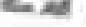22
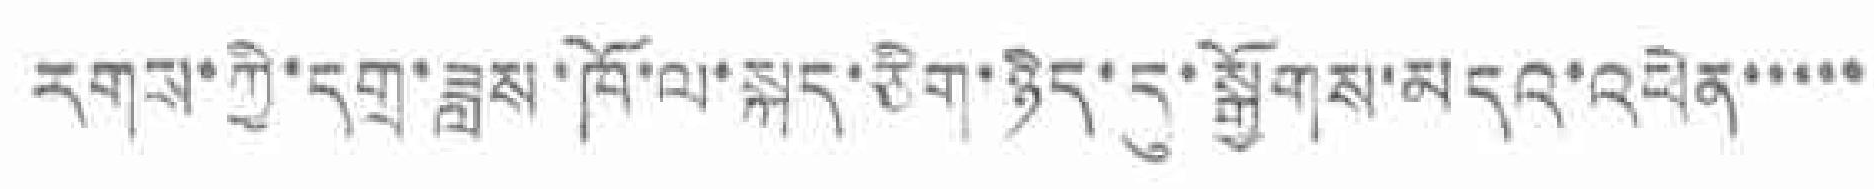རགས་ཀྱི་དགུ་ཟླས་ཁོ་ལ་སྐད་ཅིག་ཉིད་དུ་སྒྱོགས་མདའ་འཕེན་་་་་
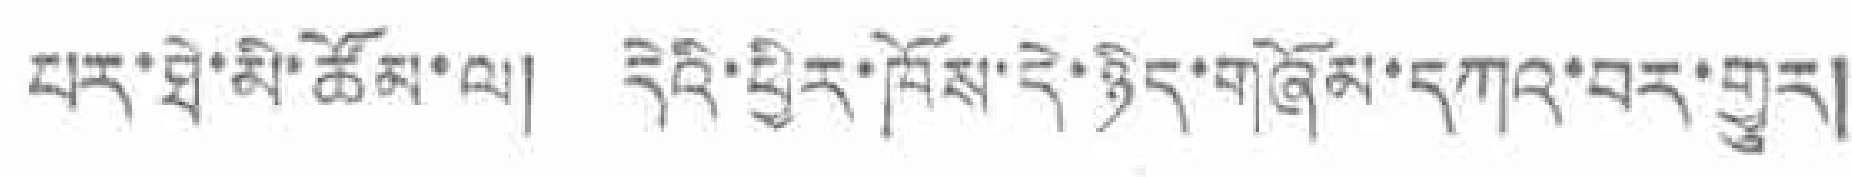པར་ཐེ་མི་ཚོམ་ལ། དེའི་ཕྱིར་ཁོས་དེ་ཉིད་གཞོམ་དཀའ་བར་གྱུར།
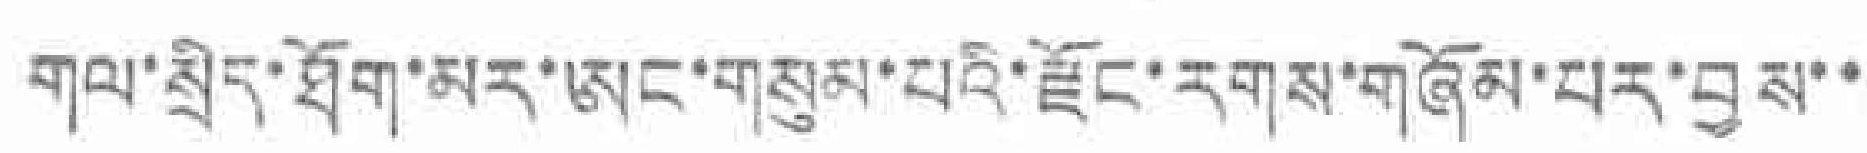གལ་སྲིད་ཐོག་མར་ཨང་གསུམ་པའི་རྫོང་རགས་གཞོམ་པར་བྱས་་
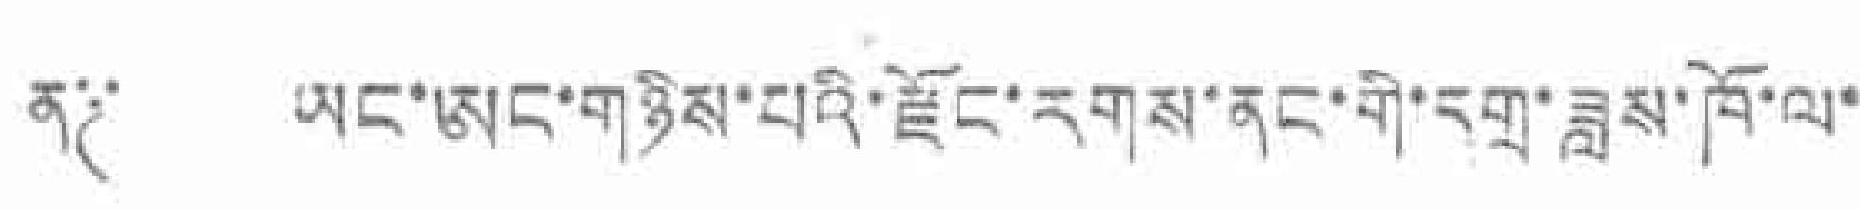ན༐ ཡང་ཨང་གཉིས་པའི་རྫོང་རགས་ནང་གི་དགྲ་ཟླས་ཁོ་ལ་
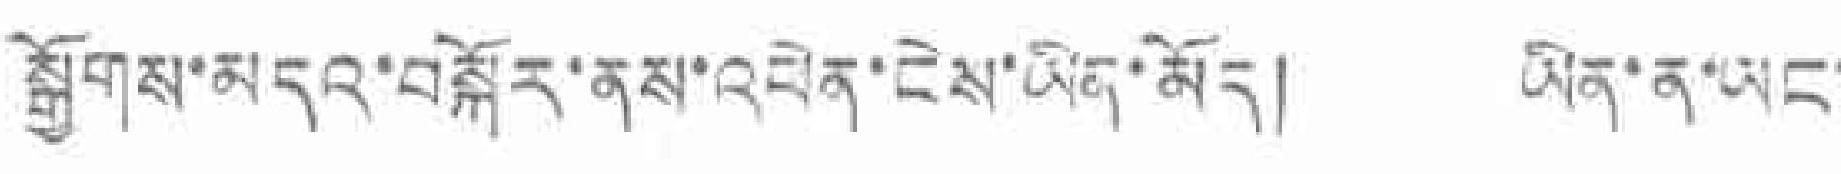སྒྱོགས་མདའ་བསྐོར་ནས་འཕེན་ངེས་ཡིན་མོད། ཡིན་ན་ཡང་
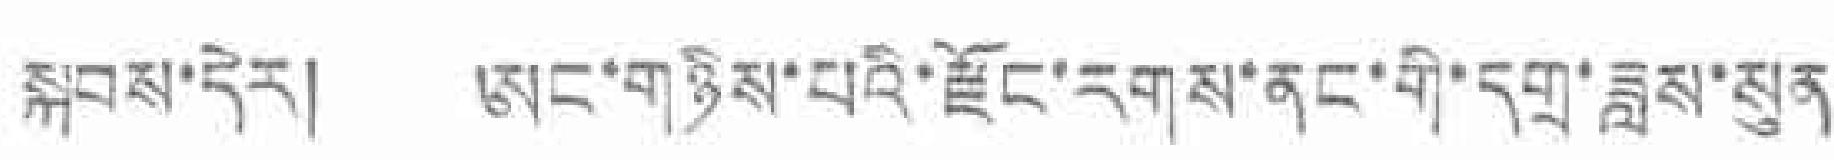སྐབས་དེར། ཨང་གཉིས་པའི་རྫོང་རགས་ནང་གི་དགྲ་ཟླས་སུན་
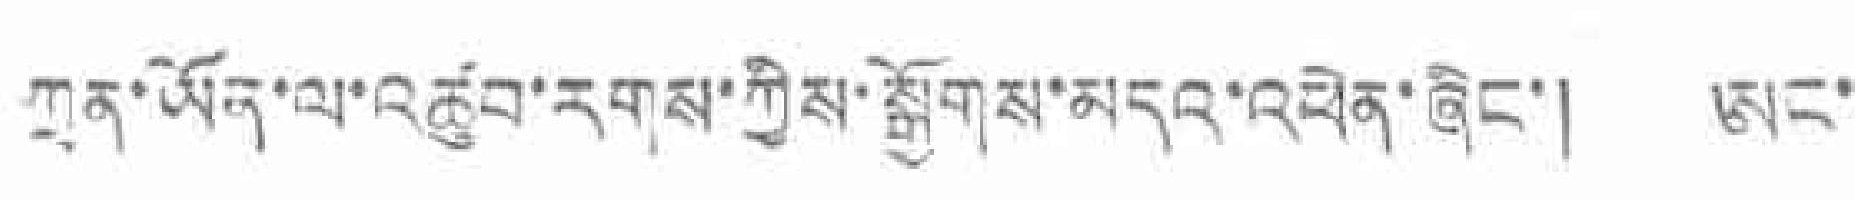ཀྲན་ཡོན་ལ་འཚུབ་རགས་ཀྱིས་སྒྱོགས་མདའ་འཕེན་ཞིང་། ཨང་
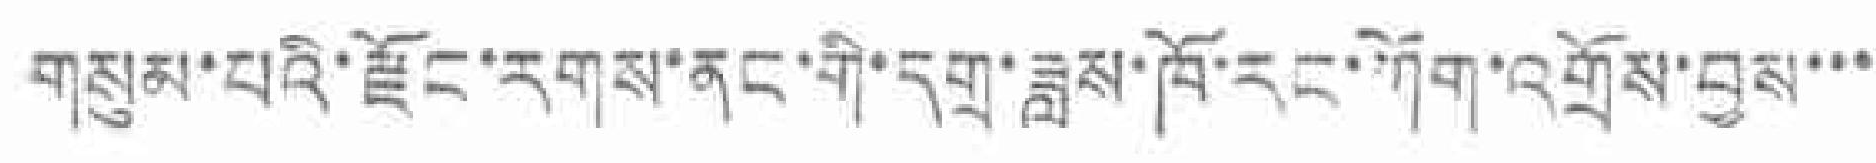གསུམ་པའི་རྫོང་རགས་ནང་གི་དགྲ་ཟླས་ཁོ་རང་ཀོག་འགྲོས་བྱས་་་
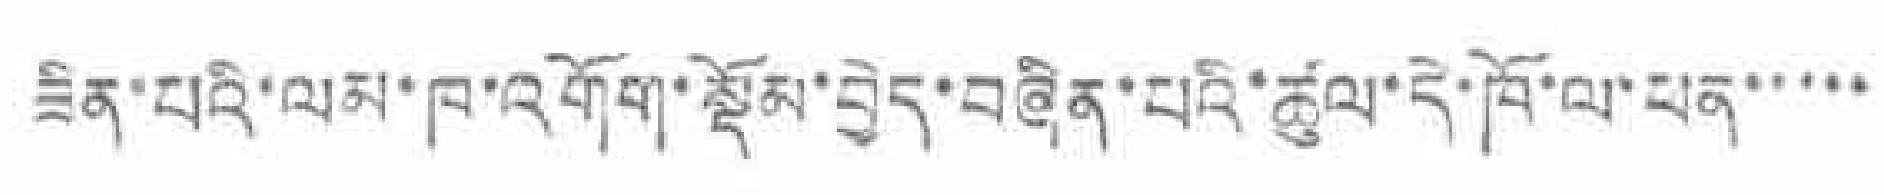ཟིན་པའི་ལམ་ཁ་འགོག་སྡོམ་བྱེད་བཞིན་པའི་ཚུལ་དེ་ཁོ་ལ་ཕན་་་་་
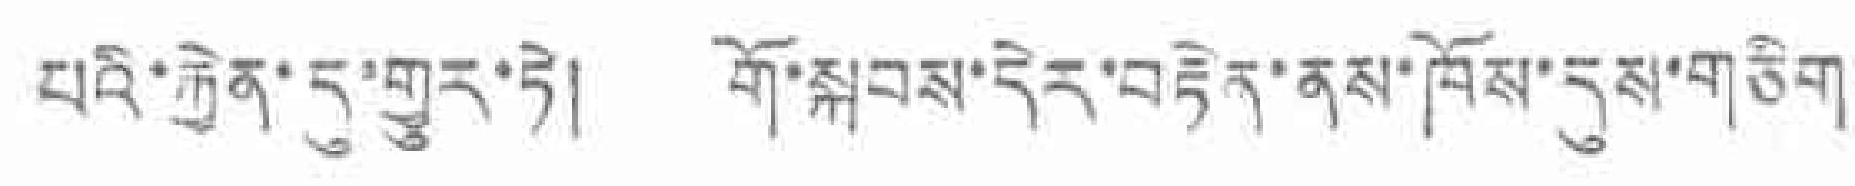པའི་རྐྱེན་དུ་གྱུར་ཏེ། གོ་སྐབས་དེར་བརྟེད་ནས་ཁོས་དུས་གཅིག་
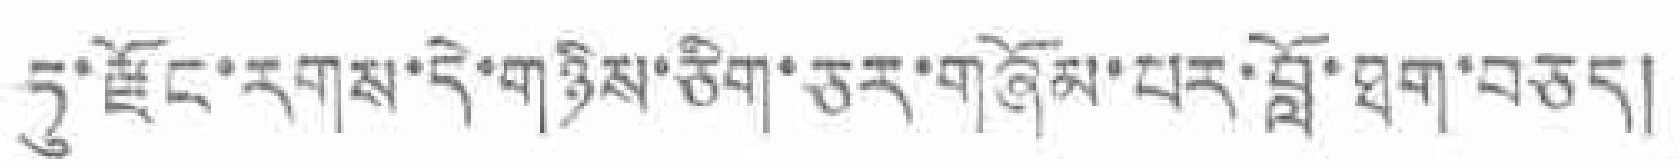ཏུ་རྫོང་དགས་དེ་གཉིས་ཅིག་ཅར་གཞོམ་པར་བློ་ཐག་བཅད།
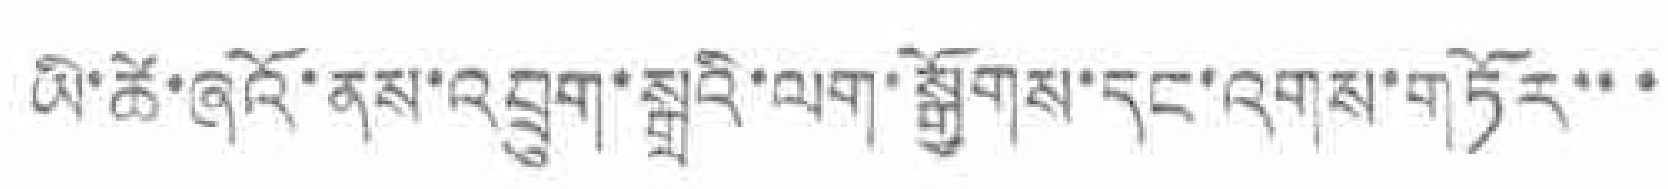ཡི་ཚེ་ཞའོ་ནས་འབྲུག་སྒྲའི་ལག་སྒྱོགས་དང་འགས་གཏོར་་་
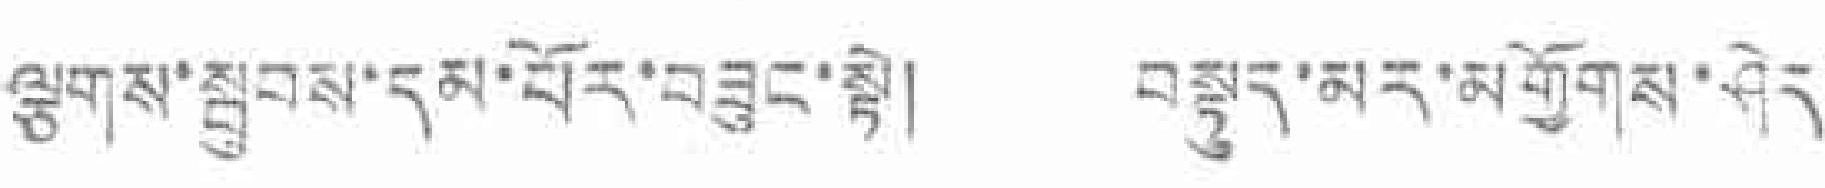ལྕགས་སྦུབས་དམ་པོར་བཟུང་སྟེ། བསྟུད་མར་མགྱོགས་ཤེད་
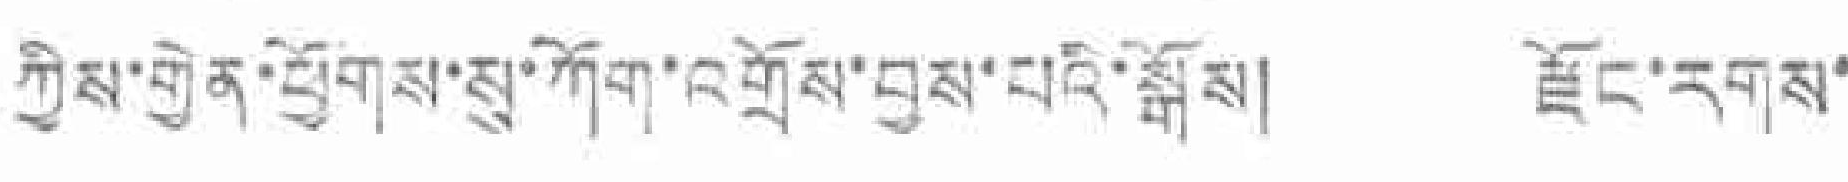ཀྱིས་གྱེན་ཕྱོགས་སུ་ཀོག་འགྲོས་བྱས་པའི་སྐོས། རྫོང་རགས་
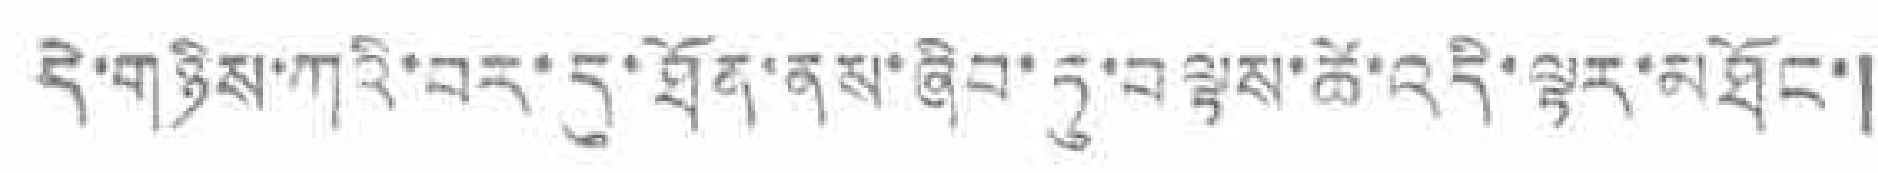དེ་གཉིས་ཀའི་བར་དུ་ཐོན་ནས་ཞིབ་ཏུ་བལྟས་ཚེ་འདི་ལྟར་མཐོང་།
